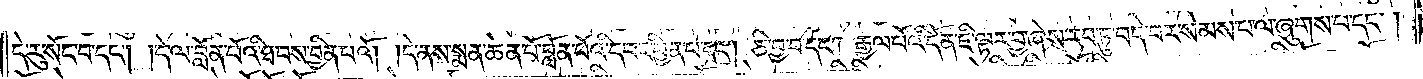དེ་རུ་སོང་བ་དང༌། །དེ་ལ་བློན་པོའི་ཐབས་བྱིན་པའོ། །དེ་ནས་སྨན་ཆེན་པོ་བློན་པོའི་དབང་བྱིན་པ་དང༌། ཅི་བྱ་བ་དང༌། རྒྱལ་པོའི་དོན་ཇི་ལྟར་བྱ་ཞེས་རབ་ཏུ་བདེ་བར་སེམས་པ་ལ་ཞུགས་པ་དང༌།
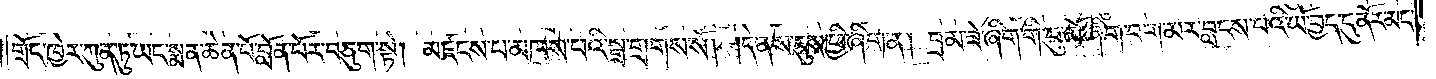གྲོང་ཁྱེར་ཀུན་ཏུ་ཡང་སྨན་ཆེན་པོ་བློན་པོར་བཅུག་སྟེ། མཛངས་པ་མཁས་པའི་སྒྲ་གྲགས་སོ། །དེ་ནས་དུས་ཕྱི་ཞིག་ན། བྲམ་ཟེ་ཞིག་གི་བུ་མོ་ཞིག་བག་མར་བླངས་པའི་ཡོ་བྱད་དུ་ནོར་མང་
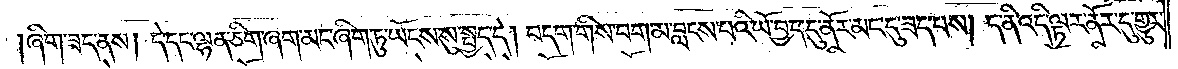ཞིག་ཟད་ནས། དེ་དང་ལྷན་ཅིག་ཞག་མང་ཞིག་ཏུ་ཡོངས་སུ་སྤྱད་དེ། བདག་གིས་བག་མ་བླངས་པའི་ཡོ་བྱད་དུ་ནོར་མང་དུ་ཟད་པས། ད་ནི་འདི་ལྟར་ནོར་དུ་གྱུར་
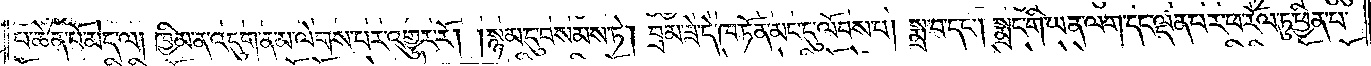པ་ཆེན་པོ་མེད་ལ། ཁྱིམ་ན་འདུག་ན་མ་ལེགས་པར་འགྱུར་རོ། །སྙམ་དུ་བསམས་ཏེ། བྲམ་ཟེ་དེ་ཁ་ཏོན་མང་དུ་ལོབས་པ། སྨྲ་བ་དང༌། སྨྲང་གི་ཡན་ལག་དང་ལྡན་པར་ཕ་རོལ་ཏུ་ཕྱིན་པ་
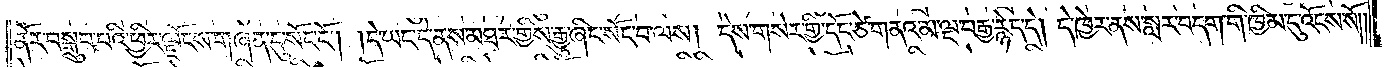ནོར་བསྒྲུབ་པའི་ཕྱིར་ལྗོངས་གཞན་དུ་སོང་ངོ༌། །དེ་ཡང་དེ་ནས་མཐར་གྱིས་རྒྱུ་ཞིང་སོང་བ་ལས། དེས་གསེར་གྱི་དོང་ཙེ་གནའ་མ་ལྔ་བརྒྱ་རྙེད་དེ། དེ་ཁྱེར་ནས་སླར་བདག་གི་ཁྱིམ་དུ་འོངས་སོ༎
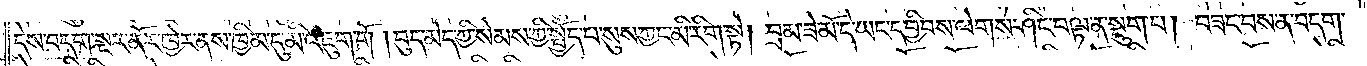དེས་བདག་སྔར་ནོར་ཁྱེར་ནས་ཁྱིམ་དུ་མི་འཇུག་གོ །བུད་མེད་ཀྱི་སེམས་ཀྱི་སྤྱོད་པ་སུས་ཀྱང་མི་རིག་སྟེ། བྲམ་ཟེ་མོ་དེ་ཡང་དབྱིབས་ལེགས་ཤིང་བལྟ་ན་སྡུག་པ། བཟང་བས་ན་བདག་
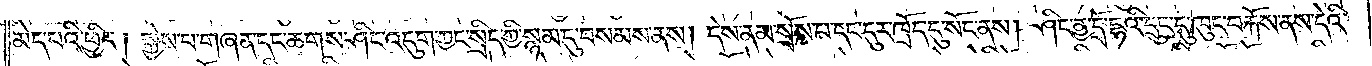མེད་པའི་ཕྱིར། སྐྱེས་པ་གཞན་དང་ཆགས་ཤིང་འདུག་ཀྱང་སྲིད་ཀྱི་སྙམ་དུ་བསམས་ནས། དེས་ནམ་སྲོས་པ་དང་དུར་ཁྲོད་དུ་སོང་ནས། ཤིང་ནྱ་དྲོ་དྷའི་དྲུང་དུ་ཁུང་བརྐོས་ནས་དེའི་
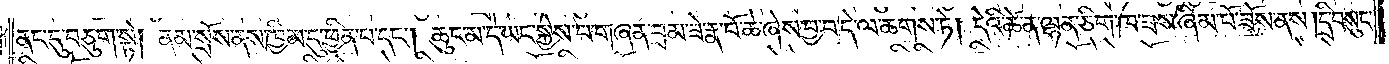ནང་དུ་བཅུག་སྟེ། ནམ་སྲོས་ནས་ཁྱིམ་དུ་ཕྱིན་པ་དང༌། ཆུང་མ་དེ་ཡང་སྐྱེས་པ་གཞན་བྲམ་ཟེ་རྣ་བོ་ཆེ་ཞེས་བྱ་བ་དེ་ལ་ཆགས་ཏེ། དེའི་ཚེ་ན་ལྷན་ཅིག་ཁ་ཟས་ཞིམ་པོ་ཟོས་ནས། དྲི་བསུང་
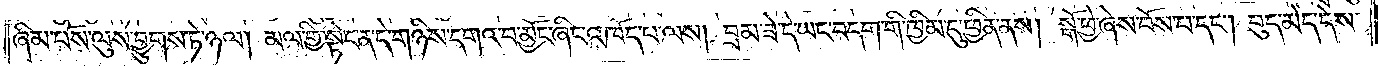ཞིམ་པོས་ལུས་བྱུགས་ཏེ་ཉལ། མལ་གྱི་སྟེང་ན་དེ་གཉིས་དགའ་བ་མྱོང་ཞིང་འཁོད་པ་ལས། བྲམ་ཟེ་དེ་ཡང་བདག་གི་ཁྱིམ་དུ་ཕྱིན་ནས། སྒོ་ཕྱེ་ཞེས་བོས་པ་དང༌། བུད་མེད་དེས་
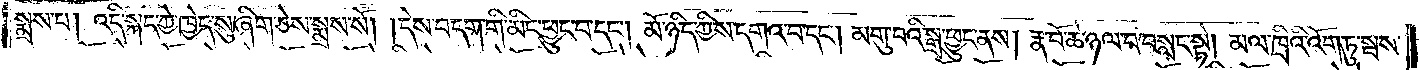སྨྲས་པ། འདི་སྐད་ཀྱེ་ཁྱེད་སུ་ཞིག་ཅེས་སྨྲས་སོ། །དེས་བདག་གི་མིང་ཕྱུང་བ་དང༌། མོ་ཉིད་ཀྱིས་དགའ་བ་དང༌། མགུ་བའི་སྒྲ་ཕྱུང་ནས། རྣ་བོ་ཆེ་ཉལ་བ་བསླང་སྟེ། མལ་ཁྲིའི་འོག་ཏུ་སྦས་
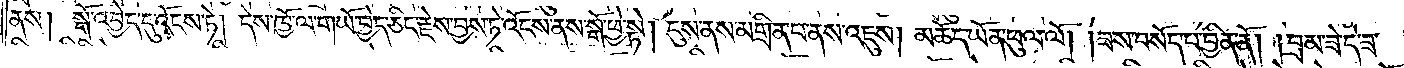ནས། སྒོ་འབྱེད་དུ་འོངས་ཏེ། དེས་ཁྱོ་ལ་གཡོ་བྱེད་ཅིང་རྗེས་བྱས་ཏེ་འོངས་ནས་སྒོ་ཕྱེ་སྟེ། ངུས་ནས་མགྲིན་པ་ནས་འཇུས། མཆོད་ཡོན་ཕུལ་ལོ། །ཟས་བསོད་པ་བྱིན་ནོ། །བྲམ་ཟེ་དེ་ཟ་
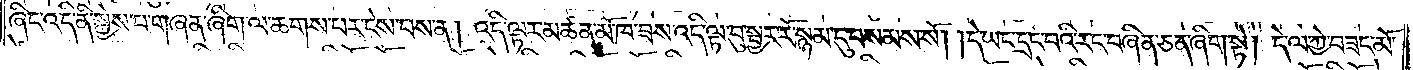ཞིང་འདི་ནི་སྐྱེས་པ་གཞན་ཞིག་ལ་ཆགས་པར་ངེས་པས་ན། འདི་ལྟར་མཚན་མོ་ཁ་ཟས་འདི་ལྟ་བུ་སྦྱར་རོ་སྙམ་དུ་བསམས་སོ། །དེ་ཡང་དྲང་བའི་རང་བཞིན་ཅན་ཞིག་སྟེ། དེ་ལ་ཀྱེ་བཟང་མོ་
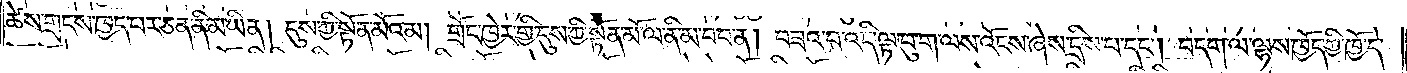ཚེས་གྲངས་ཁྱད་པར་ཅན་ནི་མ་ཡིན། དུས་ཀྱི་སྟོན་མོའམ། གྲོང་ཁྱེར་གྱི་དུས་ཀྱི་སྟོན་མོ་ལ་ནི་མ་བབ་ན། བཟའ་བ་འདི་ལྟ་བུ་ག་ལས་འོངས་ཞེས་དྲིས་པ་དང༌། བདག་ལ་ལྷས་ཁྱོད་ཀྱི་ཁྱོ་དེ་
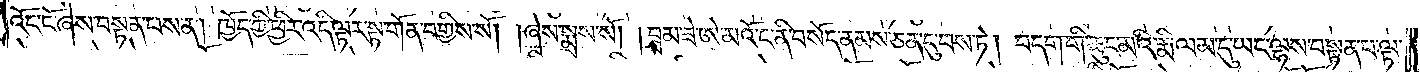འོང་ངོ་ཞེས་བསྟན་པས་ན། ཁྱོད་ཀྱི་ཕྱིར་འདི་ལྟར་སྟ་གོན་བགྱིས་སོ། །ཞེས་སྨྲས་སོ། །བྲམ་ཟེ་ཨེ་མའོ་ང་ནི་བསོད་ནམས་ཅན་དུ་བས་ཏེ། བདག་གི་ཆུང་མའི་རྨི་ལམ་དུ་ཡང་ལྷས་བསྟན་པ་ལྟ་
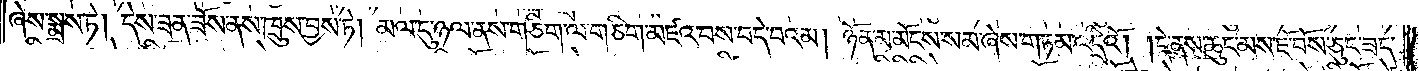ཞེས་སྨྲས་ཏེ། དེས་ཟན་ཟོས་ནས་ཁྲུས་བྱས་ཏེ། མལ་དུ་ཉལ་ནས་གཅིག་ལ་གཅིག་མཛའ་བས་བདེ་བའམ། ཉོན་མ་མོངས་སམ་ཞེས་གཏམ་འདྲིའོ། །དེ་ནས་ཆུང་མས་ཇོ་བོས་ཅུང་ཟད་
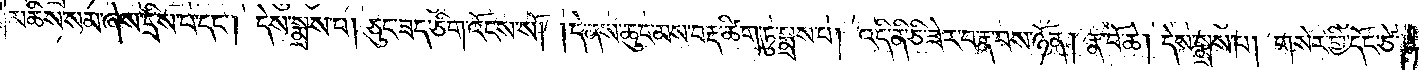མཆིས་སམ་ཞེས་དྲིས་པ་དང༌། དེས་སྨྲས་པ། ཅུང་ཟད་ཅིག་འོངས་སོ། །དེ་ནས་ཆུང་མས་བརྡ་ཚིག་ཏུ་སྨྲས་པ། འདི་ནི་ཅི་ཟེར་བ་རྣ་བས་ཉོན། རྣ་བོ་ཆེ། དེས་སྨྲས་པ། གསེར་གྱི་དོང་ཙེ་
